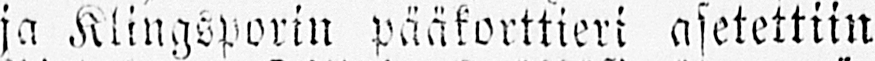ja Klingsporin pääkorttieri asetettiin
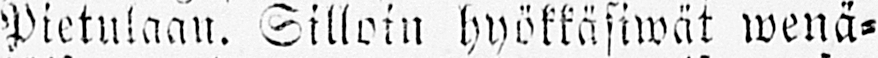Pietulaan. Silloin hyökkäsiwät wenä-
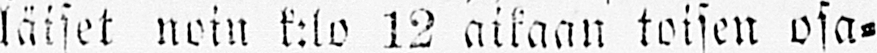läiset noin k:lo 12 aikaan toisen osa-
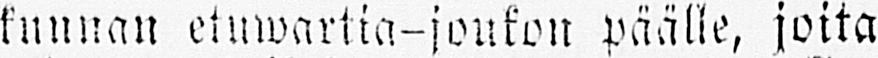kunnan etuwartia-joukon päälle, joita
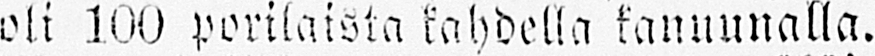oli 100 porilaista kahdella kanuunalla.
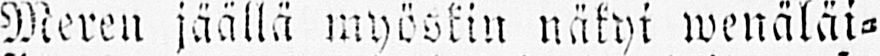Meren jäällä myöskin näkyi wenäläi-
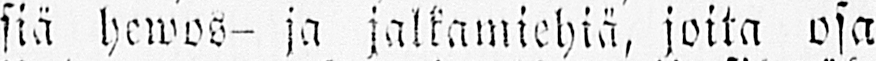siä hewos- ja jalkamiehiä, joita osa
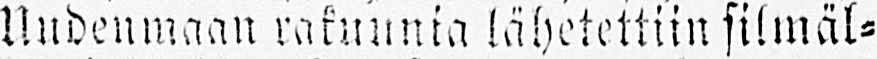Uudenmaan rakuunia lähetettiin silmäl-
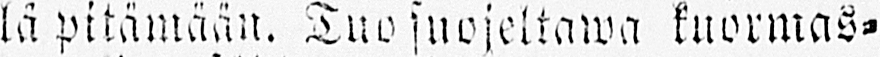lä pitämään. Tuo suojeltawa kuormas-
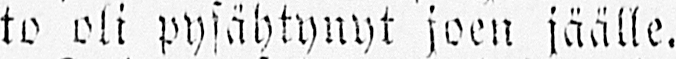to oli pysähtynyt joen jäälle.
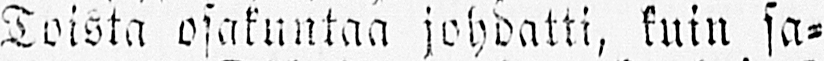Toista osakuntaa johdatti, kuin sa-
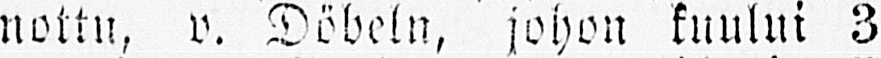nottu, v. Döbeln, johon kuului 3
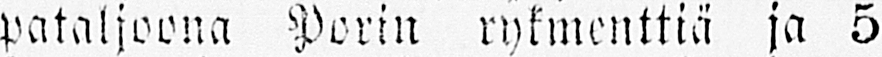pataljoona Porin rykmenttiä ja 5
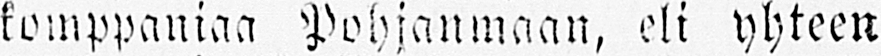komppaniaa Pohjanmaan, eli yhteen
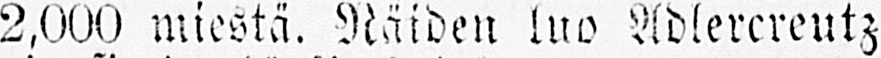2,000 miestä. Näiden luo Adlercreutz
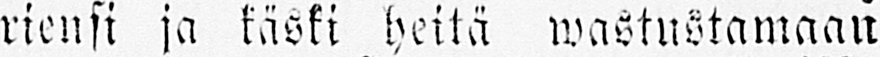riensi ja käski heitä wastustamaan
